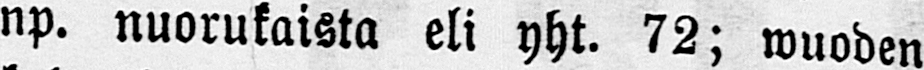np. nuorukaista eli yht. 72; wuoden
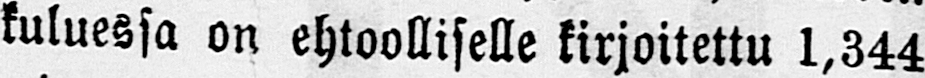kuluessa on ehtoolliselle kirjoitettu 1,344
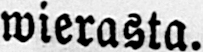wierasta.
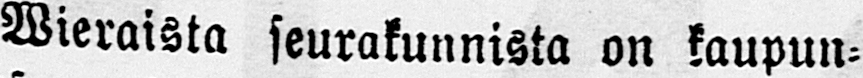Vieraista seurakunnista on kaupun-
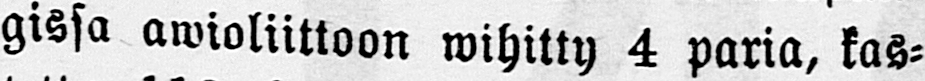gissa ansioliittoon wihitty 4 paria, kas-
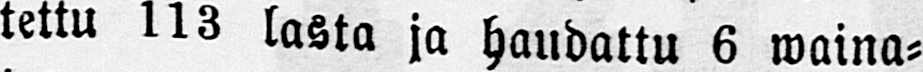tettu 113 lasta ja haudattu 6 waina-
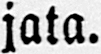jata.
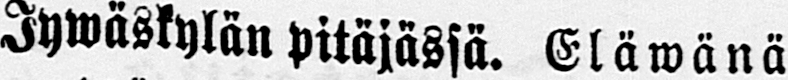-Jywäskylän pitäjässä. Eläwänä
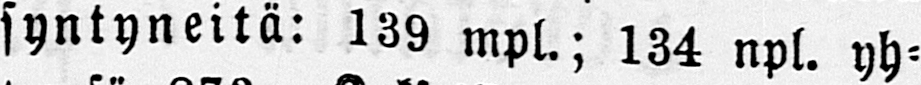syntyneitä: 139 mpl.; 134 npl. yh-
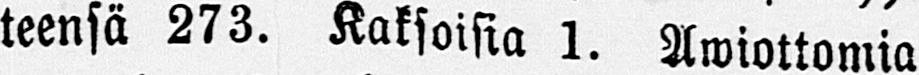teensä 273. Kaksoisia 1. Awiottomia
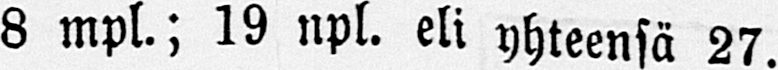8 mpl.; 19 npl. eli yhteensä 27.
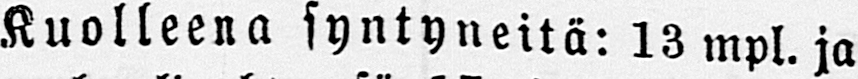Kuolleena syntyneitä: 13 mpl. ja
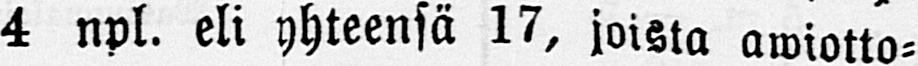4 npl. eli yhteensä 17, joista ansiotto-
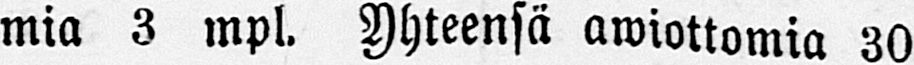mia 3 mpl. Yhteensä awiottomia 30
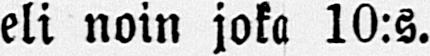eli noin joka 10:s.
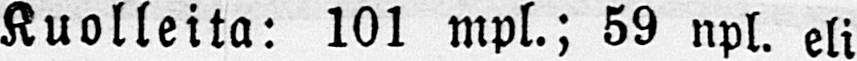Kuolleita: 101 mpl.; 59 npl. eli
